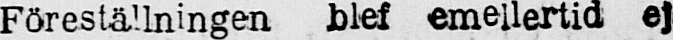Föreställningen blef emellertid ej
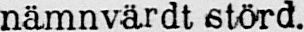nämnvärdt störd.
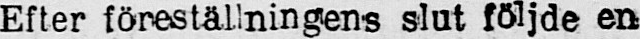Efter föreställningens slut följde en
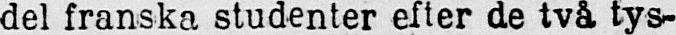del franska studenter efter de två tys-
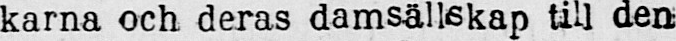karna och deras damsällskap till den
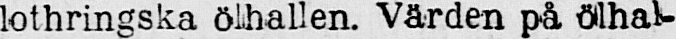lothringska ölhallen. Värden på ölhal-
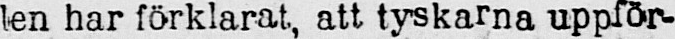len har förklarat, att tyskarna uppför-
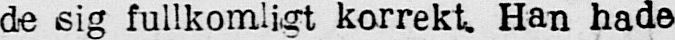de sig fullkomligt korrekt. Han hade
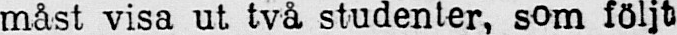måst visa ut två studenter, som följt
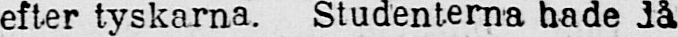efter tyskarna. Studenterna hade då
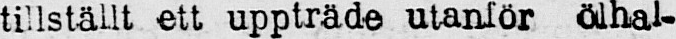tillställt ett uppträde utanför ölhal-
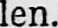len.
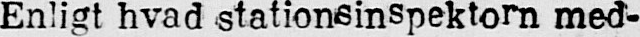Enligt hvad stationsinspektorn med-
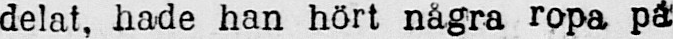delat, hade han hört några ropa på
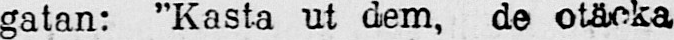gatan: ”Kasta ut dem, de otäcka
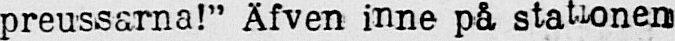preussarna!” Äfven inne på stationen
